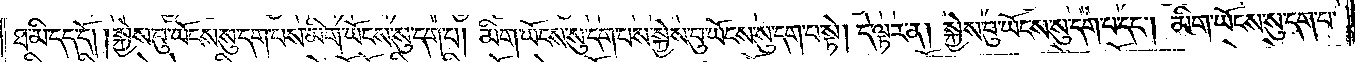ཐ་མི་དད་དོ། །སྐྱེས་བུ་ཡོངས་སུ་དག་པས་མིག་ཡོངས་སུ་དག་པ། མིག་ཡོངས་སུ་དག་པས་སྐྱེས་བུ་ཡོངས་སུ་དག་པ་སྟེ། དེ་ལྟར་ན། སྐྱེས་བུ་ཡོངས་སུ་དག་པ་དང༌། མིག་ཡོངས་སུ་དག་པ་
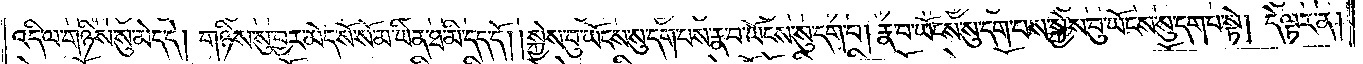འདི་ལ་གཉིས་སུ་མེད་དེ། གཉིས་སུ་བྱར་མེད་སོ་སོ་མ་ཡིན་ཐ་མི་དད་དོ། །སྐྱེས་བུ་ཡོངས་སུ་དག་པས་རྣ་བ་ཡོངས་སུ་དག་པ། རྣ་བ་ཡོངས་སུ་དག་པས་སྐྱེས་བུ་ཡོངས་སུ་དག་པ་སྟེ། དེ་ལྟར་ན།
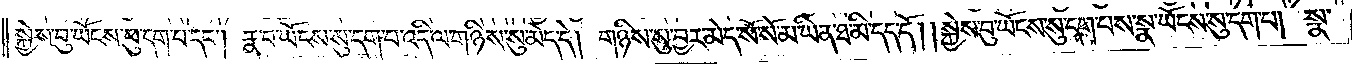སྐྱེས་བུ་ཡོངས་སུ་དག་པ་དང༌། རྣ་བ་ཡོངས་སུ་དག་པ་འདི་ལ་གཉིས་སུ་མེད་དེ། གཉིས་སུ་བྱར་མེད་སོ་སོ་མ་ཡིན་ཐ་མི་དད་དོ། །སྐྱེས་བུ་ཡོངས་སུ་དག་པས་སྣ་ཡོངས་སུ་དག་པ། སྣ་
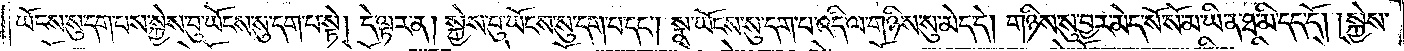ཡོངས་སུ་དག་པས་སྐྱེས་བུ་ཡོངས་སུ་དག་པ་སྟེ། དེ་ལྟར་ན། སྐྱེས་བུ་ཡོངས་སུ་དག་པ་དང༌། སྣ་ཡོངས་སུ་དག་པ་འདི་ལ་གཉིས་སུ་མེད་དེ། གཉིས་སུ་བྱར་མེད་སོ་སོ་མ་ཡིན་ཐ་མི་དད་དོ། །སྐྱེས་
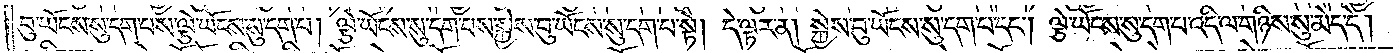བུ་ཡོངས་སུ་དག་པས་ལྕེ་ཡོངས་སུ་དག་པ། ལྕེ་ཡོངས་སུ་དག་པས་སྐྱེས་བུ་ཡོངས་སུ་དག་པ་སྟེ། དེ་ལྟར་ན། སྐྱེས་བུ་ཡོངས་སུ་དག་པ་དང༌། ལྕེ་ཡོངས་སུ་དག་པ་འདི་ལ་གཉིས་སུ་མེད་དེ།
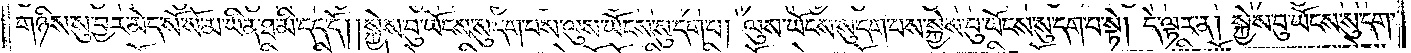གཉིས་སུ་བྱར་མེད་སོ་སོ་མ་ཡིན་ཐ་མི་དད་དོ། །སྐྱེས་བུ་ཡོངས་སུ་དག་པས་ལུས་ཡོངས་སུ་དག་པ། ལུས་ཡོངས་སུ་དག་པས་སྐྱེས་བུ་ཡོངས་སུ་དག་པ་སྟེ། དེ་ལྟར་ན། སྐྱེས་བུ་ཡོངས་སུ་དག་
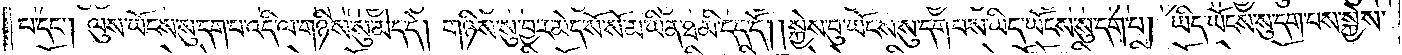པ་དང༌། ལུས་ཡོངས་སུ་དག་པ་འདི་ལ་གཉིས་སུ་མེད་དེ། གཉིས་སུ་བྱར་མེད་སོ་སོ་མ་ཡིན་ཐ་མི་དད་དོ། །སྐྱེས་བུ་ཡོངས་སུ་དག་པས་ཡིད་ཡོངས་སུ་དག་པ། ཡིད་ཡོངས་སུ་དག་པས་སྐྱེས་
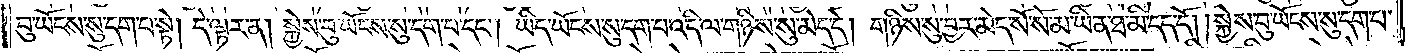བུ་ཡོངས་སུ་དག་པ་སྟེ། དེ་ལྟར་ན། སྐྱེས་བུ་ཡོངས་སུ་དག་པ་དང༌། ཡིད་ཡོངས་སུ་དག་པ་འདི་ལ་གཉིས་སུ་མེད་དེ། གཉིས་སུ་བྱར་མེད་སོ་སོ་མ་ཡིན་ཐ་མི་དད་དོ། །སྐྱེས་བུ་ཡོངས་སུ་དག་པ་
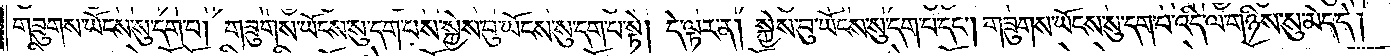གཟུགས་ཡོངས་སུ་དག་པ། གཟུགས་ཡོངས་སུ་དག་པས་སྐྱེས་བུ་ཡོངས་སུ་དག་པ་སྟེ། དེ་ལྟར་ན། སྐྱེས་བུ་ཡོངས་སུ་དག་པ་དང༌། གཟུགས་ཡོངས་སུ་དག་པ་འདི་ལ་གཉིས་སུ་མེད་དེ།
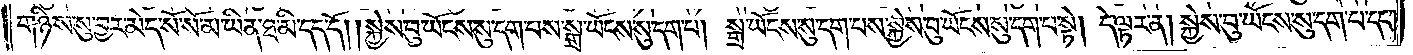གཉིས་སུ་བྱར་མེད་སོ་སོ་མ་ཡིན་ཐ་མི་དད་དོ། །སྐྱེས་བུ་ཡོངས་སུ་དག་པས་སྒྲ་ཡོངས་སུ་དག་པ། སྒྲ་ཡོངས་སུ་དག་པས་སྐྱེས་བུ་ཡོངས་སུ་དག་པ་སྟེ། དེ་ལྟར་ན། སྐྱེས་བུ་ཡོངས་སུ་དག་པ་དང༌།
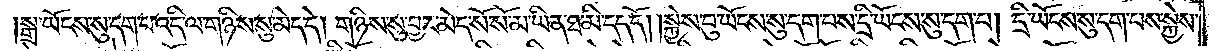སྒྲ་ཡོངས་སུ་དག་པ་འདི་ལ་གཉིས་སུ་མེད་དེ། གཉིས་སུ་བྱར་མེད་སོ་སོ་མ་ཡིན་ཐ་མི་དད་དོ། །སྐྱེས་བུ་ཡོངས་སུ་དག་པས་དྲི་ཡོངས་སུ་དག་པ། དྲི་ཡོངས་སུ་དག་པས་སྐྱེས་
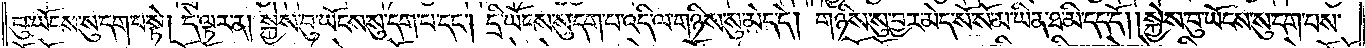བུ་ཡོངས་སུ་དག་པ་སྟེ། དེ་ལྟར་ན། སྐྱེས་བུ་ཡོངས་སུ་དག་པ་དང༌། དྲི་ཡོངས་སུ་དག་པ་འདི་ལ་གཉིས་སུ་མེད་དེ། གཉིས་སུ་བྱར་མེད་སོ་སོ་མ་ཡིན་ཐ་མི་དད་དོ། །སྐྱེས་བུ་ཡོངས་སུ་དག་པས་
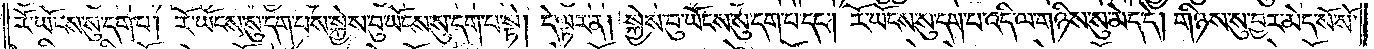རོ་ཡོངས་སུ་དག་པ། རོ་ཡོངས་སུ་དག་པས་སྐྱེས་བུ་ཡོངས་སུ་དག་པ་སྟེ། དེ་ལྟར་ན། སྐྱེས་བུ་ཡོངས་སུ་དག་པ་དང༌། རོ་ཡོངས་སུ་དག་པ་འདི་ལ་གཉིས་སུ་མེད་དེ། གཉིས་སུ་བྱར་མེད་སོ་སོ་
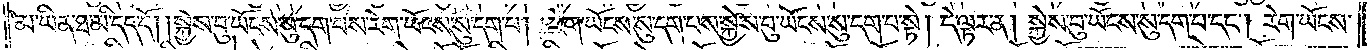མ་ཡིན་ཐ་མི་དད་དོ། །སྐྱེས་བུ་ཡོངས་སུ་དག་པས་རེག་ཡོངས་སུ་དག་པ། རེག་ཡོངས་སུ་དག་པས་སྐྱེས་བུ་ཡོངས་སུ་དག་པ་སྟེ། དེ་ལྟར་ན། སྐྱེས་བུ་ཡོངས་སུ་དག་པ་དང༌། རེག་ཡོངས་
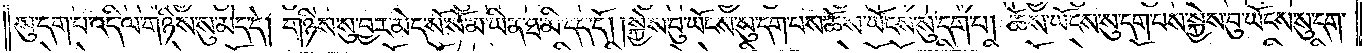སུ་དག་པ་འདི་ལ་གཉིས་སུ་མེད་དེ། གཉིས་སུ་བྱར་མེད་སོ་སོ་མ་ཡིན་ཐ་མི་དད་དོ། །སྐྱེས་བུ་ཡོངས་སུ་དག་པས་ཆོས་ཡོངས་སུ་དག་པ། ཆོས་ཡོངས་སུ་དག་པས་སྐྱེས་བུ་ཡོངས་སུ་དག་
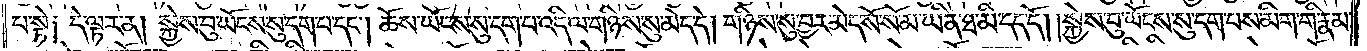པ་སྟེ༑ དེ་ལྟར་ན། སྐྱེས་བུ་ཡོངས་སུ་དག་པ་དང༌། ཆོས་ཡོངས་སུ་དག་པ་འདི་ལ་གཉིས་སུ་མེད་དེ། གཉིས་སུ་བྱར་མེད་སོ་སོ་མ་ཡིན་ཐ་མི་དད་དོ། །སྐྱེས་བུ་ཡོངས་སུ་དག་པས་མིག་གི་རྣམ་
